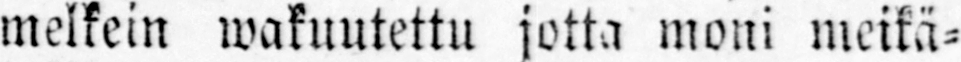melkein wakuutettu jotta moni meikä-
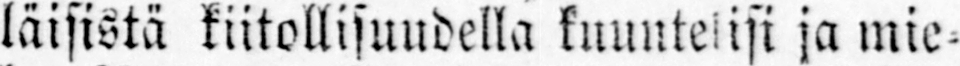läisistä kiitollisuudella kuuntelisi ja mie-
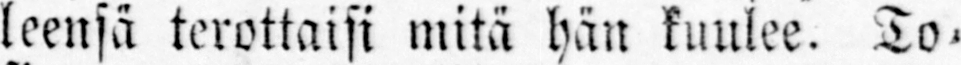leensä terottaisi mitä hän kuulee. To-
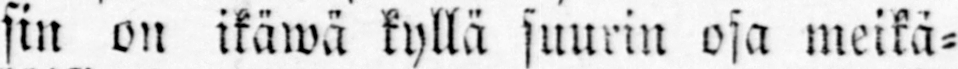sin on ikäwä kyllä suurin osa meikä-
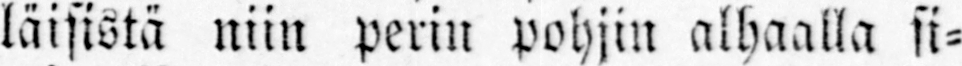läisistä niin perin pohjin alhaalla si-
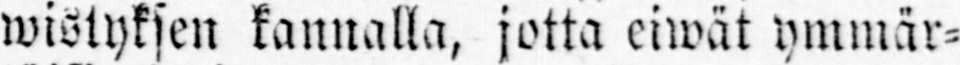wistyksen kannalla, jotta eiwät ymmär-
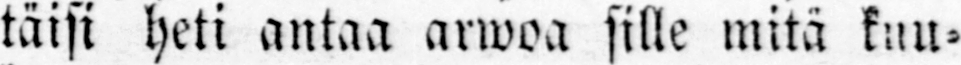täisi heti antaa arwoa sille mitä kuu-
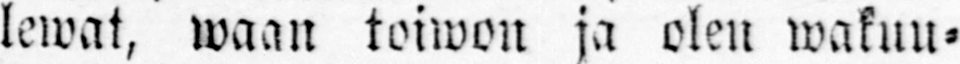lewat, waan toiwon ja olen wakuu-
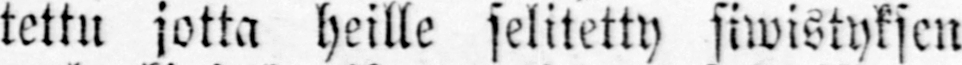tettu jotta heille selitetty siwistyksen
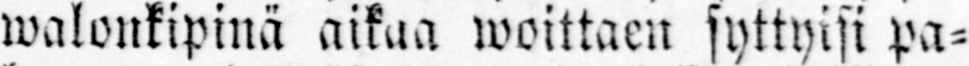walonkipinä aikaa woittaen syttyisi pa-
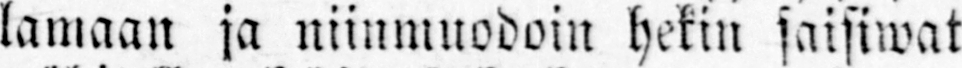lamaan ja niinmuodoin hekin saisiwat
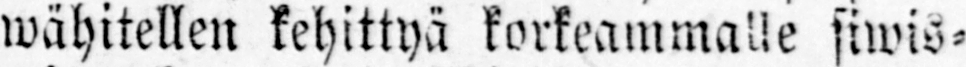wähitellen kehittyä korkeammalle siwis-
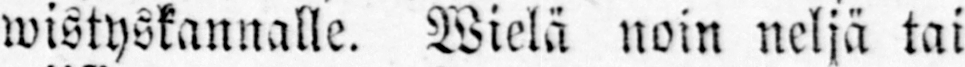wistyskannalle. Wielä noin neljä tai
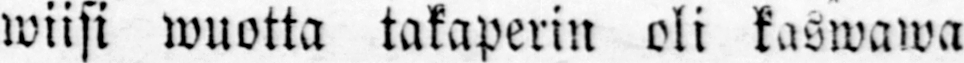wiisi wuotta takaperin oli kaswawa
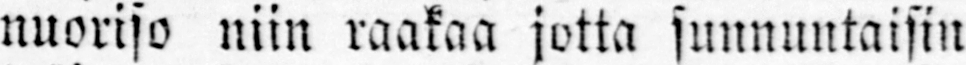nuoriso niin raakaa jotta sunnuntaisin
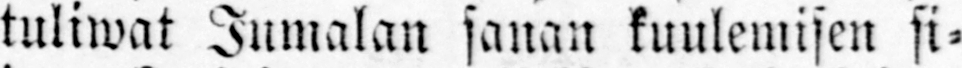tuliwat Jumalan sanan kuulemisen si-
